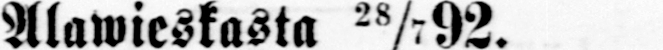Alawieskasta 28/7 92.
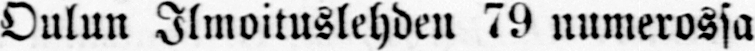Oulun Ilmoituslehden 79 numerossa
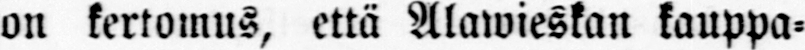on kertomus, että Alawieskan kauppa-
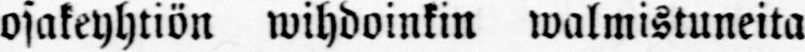osakeyhtiön wihdoinkin walmistuneita
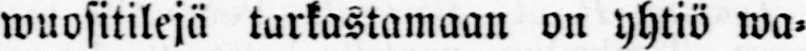wuositilejä tarkastamaan on yhtiö wa-
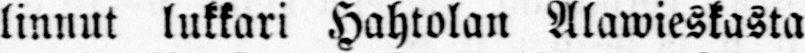linnut lukkari Hahtolan Alawieskasta
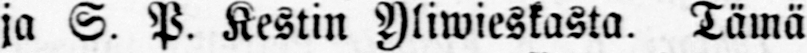ja S. P. Kestin Yliwieskasta. Tämä
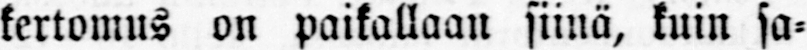kertomus on paikallaan siinä, kuin sa-
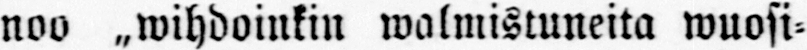noo ˶wihdoinkin walmistuneita wuosi-
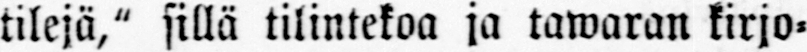tilejä," sillä tilintekoa ja tawaran kirjo-
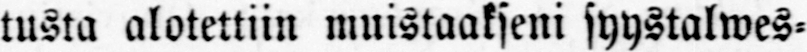tusta alotettiin muistaakseni syystalwes-
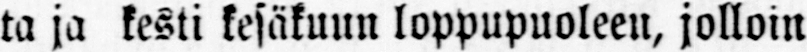ta ja kesti kesäkuun loppupuoleen, jolloin
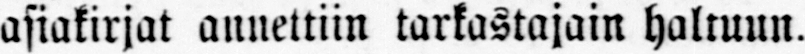asiakirjat annettiin tarkastajain haltuun.
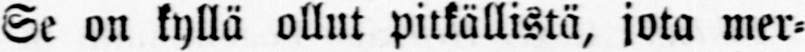Se on kyllä ollut pitkällistä, jota mer-
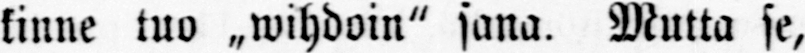kinne tuo „wihdoin" sana. Mutta se,
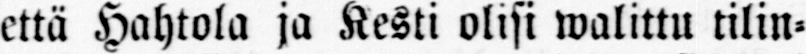että Hahtola ja Kesti olisi walittu tilin-
